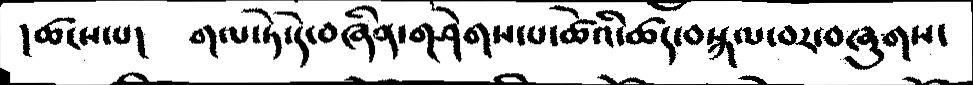།ཚངས་པ།   གལ་ཏེ་དེ་བཞིན་གཤེག་པ་ཚེའི་ཚད་བསྐལ་བར་བཞུགས་
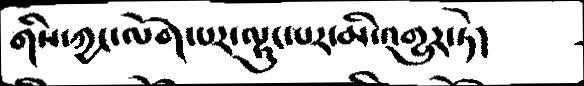གིས་ཀྱང་ལོག་པར་ལྟུང་པར་མི་འགྱུར་ཏེ།
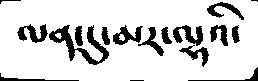ལན་དུ་མར་ལྷའི་
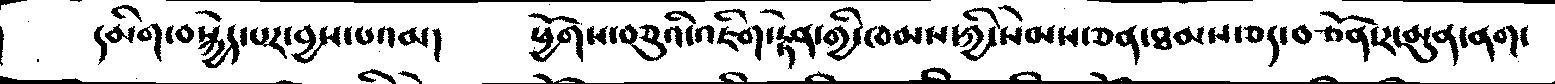དམིག་བསྐྱེད་པར་བྱས་པའམ།    ཕྱོགས་བཅུའི་འཇིག་རྟེན་གྱི་ཁམས་ཀྱི་སེམས་ཅན་ཐམས་ཅད་བཙོན་ར་མུན་ནག
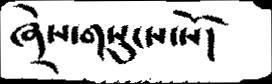ཞེས་གསུངས་སོ།
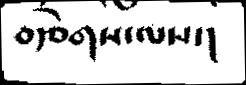བརྩེགས་ལས་།
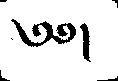༄༅།
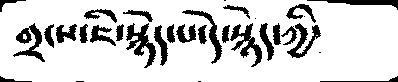གྲངས་ཇི་སྙེད་པ་དེ་སྙེད་ཀྱི་
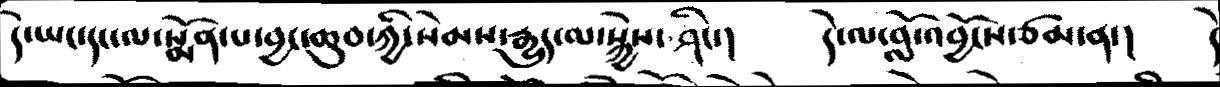དེ་ཡང་དང་ལ་སྨོན་པ་བྱང་ཆུབ་ཀྱི་སེམས་རྒྱུད་མ་སྐྱེས་ཤིང་།  དེ་ལ་བློ་འབྱོངས་ཙམ་ན་།  དེ
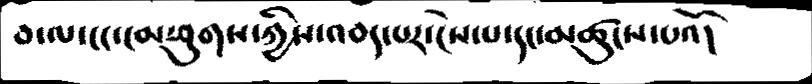བ་ལ་ངང་ངམ་ཤུགས་ཀྱིས་འབད་པར་ངེས་པ་དང་མཚུངས་པའོ།
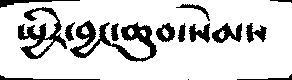སྤྱིར་བྱང་ཆུབ་སེམས
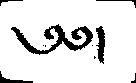༄༅།
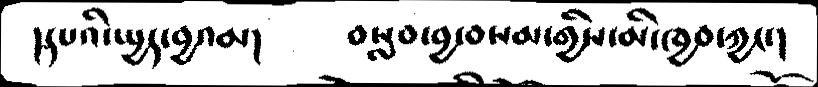།དཔའི་སྤྱད་བྱའམ།       བསླབ་བྱ་བསམ་གྱིས་མི་ཁྱབ་ཀྱང་།
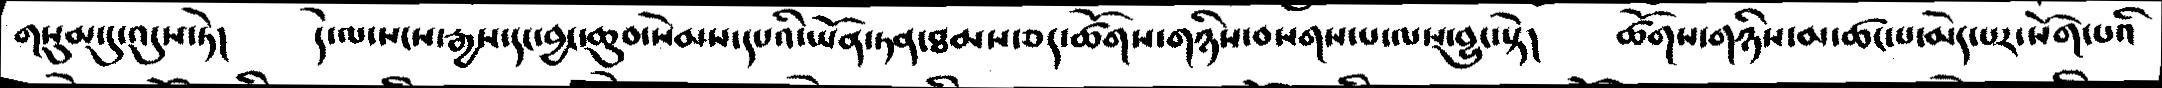གསུམ་དུ་འདུས་ཏེ།   དེ་ལ་སངས་རྒྱས་དང་བྱང་ཆུབ་སེམས་དཔའི་ཡོན་ཏན་ཐམས་ཅད་ཚོགས་གཉིས་བསགས་པ་ལས་བྱུང་སྟེ།   ཚོགས་གཉིས་མ་ཚང་པ་མེད་པར་སོག་པའི་
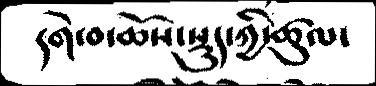དགེ་བ་ཆོས་སྡུད་ཀྱི་ཚུལ་
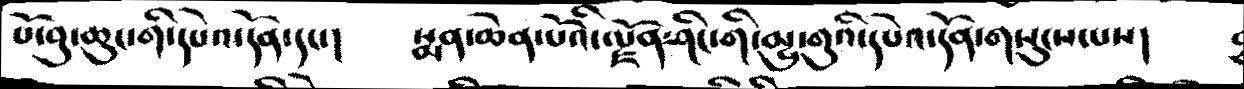པོ་བུ་ཆུང་གི་དཔེའ་དོན་དང་།   སྨན་ཆེན་པོའི་ལྗོན་ཤིང་གི་མྱུ་གུའི་དཔེའ་དོན་གསུངས་པས་།
